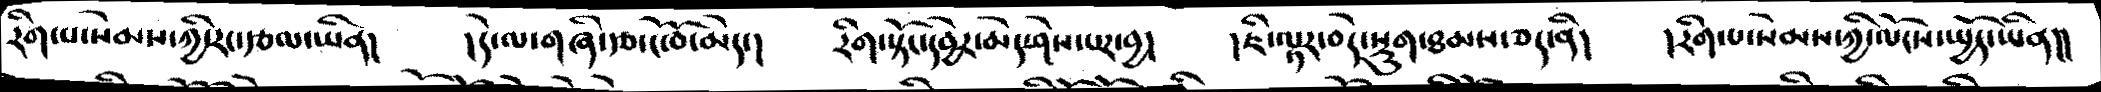རིག་པ་སེམས་ཀྱི་རང་རྩལ་ཡིན་།   །དེ་ལ་གཞི་རྩ་ངོ་བོ་མེད་།   རིག་སྟོང་དབྱེར་བྱེད་ཤེས་པར་བྱ་།   །ཇི་ལྟར་བདེ་སྡུག་ཐམས་ཅད་ནི།   །རིག་པ་སེམས་ཀྱི་ལོངས་སྤྱོད་ཡིན།།
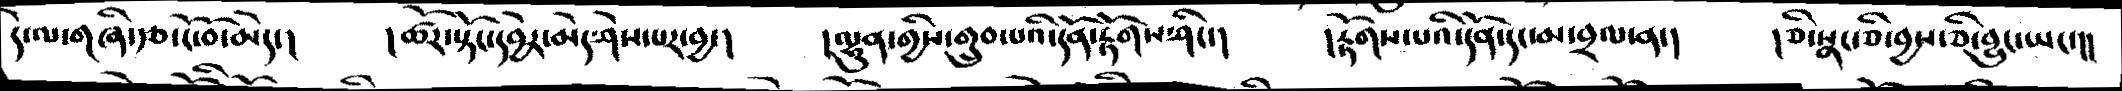དེ་ལ་གཞི་རྩ་ངོ་བོ་མེད་།  །ཚོར་སྟོང་དབྱེར་མེད་ཤེས་པར་བྱ་།   །ལྷུན་གྱིས་གྲུབ་པའི་དོན་རྟོགས་ཤིང་།   །རྟོགས་པའི་དོན་དང་མ་བྲལ་ན་།   །ཅི་སྣང་ཅི་བྱས་ཅི་བྱུང་ཡང་།།
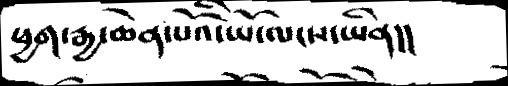ཕྱག་རྒྱ་ཆེན་པོའི་ཡོ་ལངས་ཡིན།།
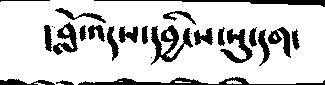།བློ་འདས་དབྱིངས་སུ་དག་
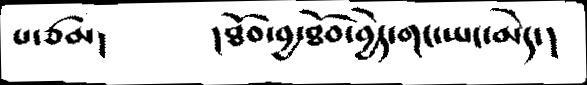པ་ཙམ།     །ཐོབ་བྱ་ཐོབ་བྱེད་གང་ཡང་མེད་།
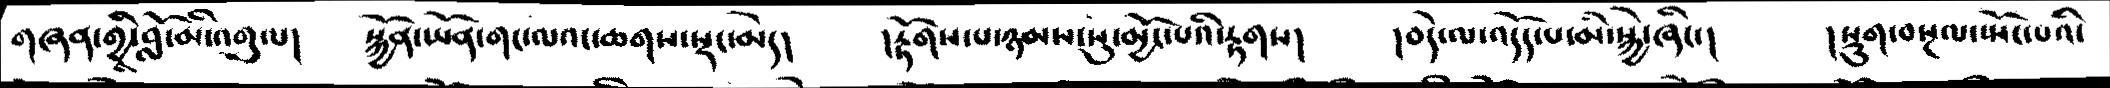གཞན་གྱི་བློ་མི་འགུལ།   སྐྱོན་ཡོན་གང་ལའང་ཆགས་སྡང་མེད།   །རྟོགས་པ་ཉམས་སུ་མྱོང་པའི་རྟགས།   །བདེ་ལ་འདོད་པ་མི་སྐྱེ་ཞིང་།   །སྡུག་བསྔལ་སྤོང་པའི་
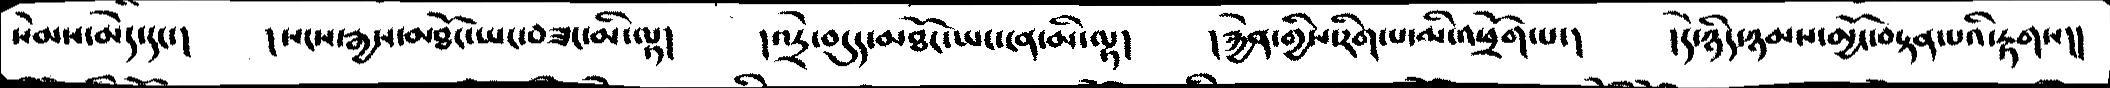སེམས་མེད་དང་།   །སངས་རྒྱས་མཐོང་ཡང་བཟང་མི་ལྟ།   །འདྲེ་བདུད་མཐོང་ཡང་ངན་མི་ལྟ།   །རྐྱེན་གྱིས་རིག་པ་མི་འཕྲོག་པ་།   །དེ་ཉིད་ཉམས་མྱོང་བསྟན་པའི་རྟགས།།
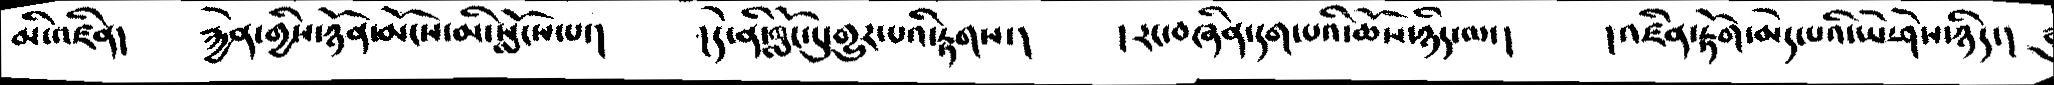མི་འཛིན།   རྐྱེན་གྱིས་ཉོན་མོངས་མི་སློངས་པ་།   །དེ་ནི་གློང་དུ་གྱུར་པའི་རྟགས།   །རང་བཞིན་དག་པའི་ཆོས་ཉིད་ལ་།   །འཛིན་རྟོག་མེད་པའི་ཡེ་ཤེས་ཉིད་།
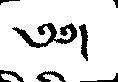༄༅།
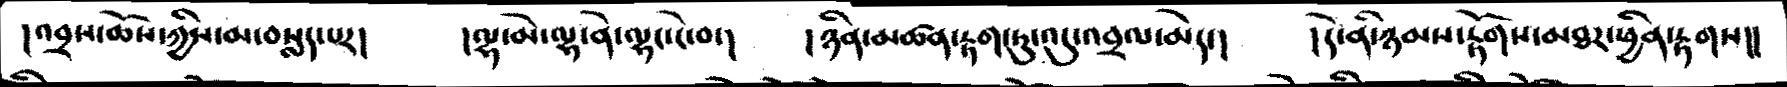།འབྲས་ཆོས་ཀྱིས་མ་བསླད་པར།   །ལྷ་མེ་ལྷ་ནེ་ལྷང་ངེ་བ་།   །ཉིན་མཚན་རྟག་ཏུ་འདུ་འབྲལ་མེད་།   །དེ་ནི་ཉམས་རྟོགས་མཐར་ཕྱིན་རྟགས།།
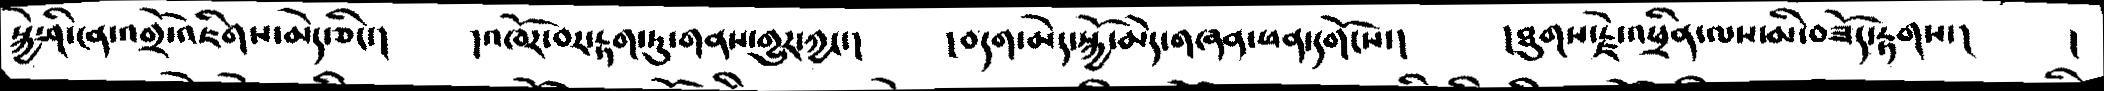སྐྱེ་ཤི་ངན་འགྲོ་འཇིགས་མེད་ཅིང་།  །འཁོར་བར་རྟག་ཏུ་གནས་གྱུར་ཀྱང་།   །བདག་མེད་སྐྱོ་མེད་གཞན་ཕན་དགོངས་།   །ཐུགས་རྗེ་འཕྲིན་ལས་མི་བཟོད་རྟགས་།  །
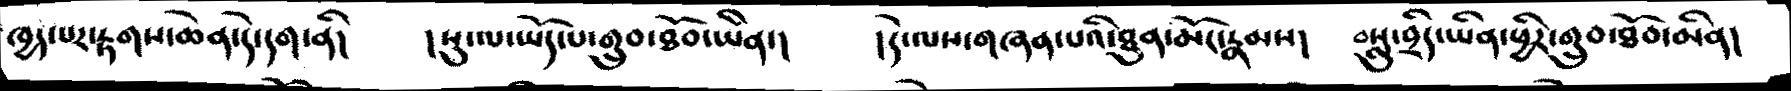ཁྱད་པར་རྟགས་ཆེན་དེ་དག་ནི།   །སུ་ལ་ཡོད་པ་གྲུབ་ཐོབ་ཡིན་།   །དེ་ལས་གཞན་པའི་ཐུན་མོང་རྣམས།   བསླུ་བྲིད་ཡིན་ཕྱིར་གྲུབ་ཐོབ་མིན།
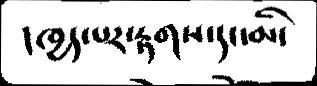། ཁྱད་པར་རྟགས་དང་མི་
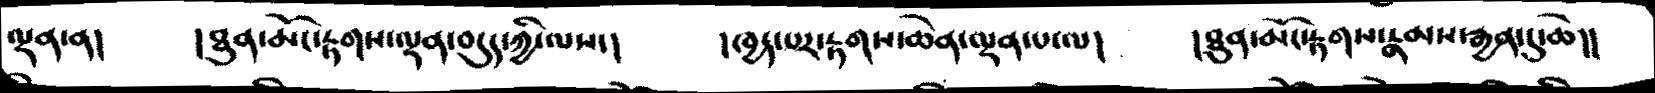ལྡན་ན།      །ཐུན་མོང་རྟགས་ལྡན་བདུད་ཀྱི་ལས་།    །ཁྱད་པར་རྟགས་ཆེན་ལྡན་པ་ལ།     །ཐུན་མོང་རྟགས་རྣམས་རྒྱན་དུ་ཆེ།།
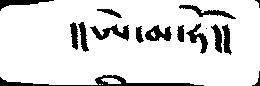།། ཨེ་མ་ཧོ།།
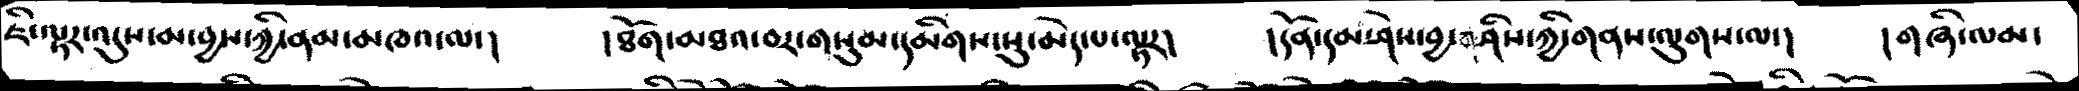ཇི་ལྟར་འདུས་མ་བྱས་ཀྱི་ནམ་མཁའ་ལ་།    །ཐོག་མཐའ་བར་གསུམ་དམིགས་སུ་མེད་པ་ལྟར།   །དོན་དམ་ཤེས་བྱ་གཤིས་ཀྱི་གནས་ལུགས་ལ་།   །གཞི་ལམ་
